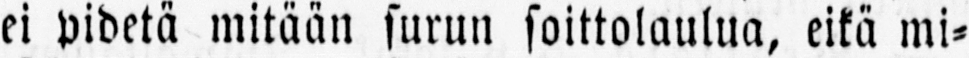ei pidetä mitään surun soittolaulua, eikä mi-
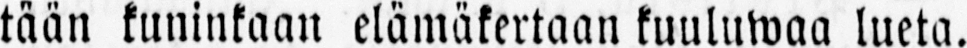tään kuninkaan elämäkertaan kuuluwaa lueta.
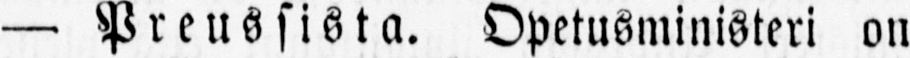— Preussista. Opetusministeri on
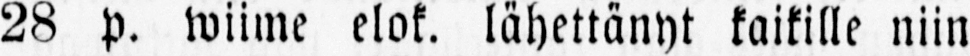28 p. wiime elok. lähettänyt kaikille niin
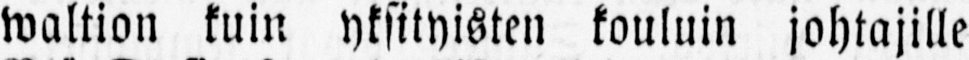waltion kuin yksityisten kouluin johtajille
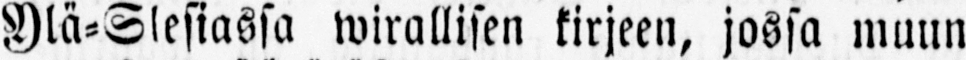Ylä-Slesiassa wirallisen kirjeen, jossa muun
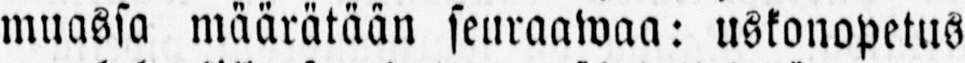muassa määrätään seuraawaa: uskonopetus
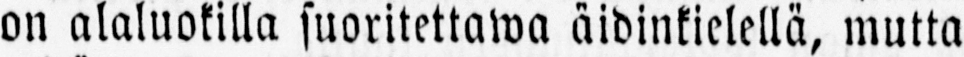on alaluokilla suoritettawa äidinkielellä, mutta
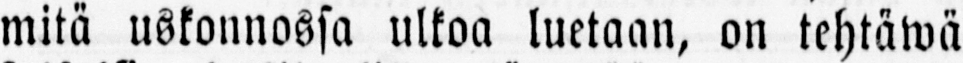mitä uskonnossa ulkoa luetaan, on tehtäwä
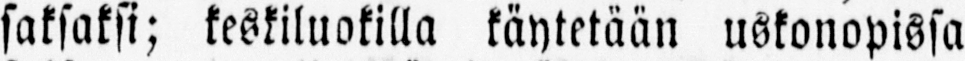saksaksi; keskiluokilla käytetään uskonopissa
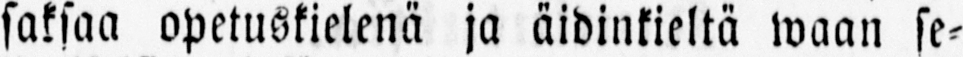saksaa opetuskielenä ja äidinkieltä waan se-
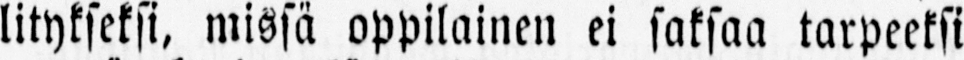litykseksi, missä oppilainen ei saksaa tarpeeksi
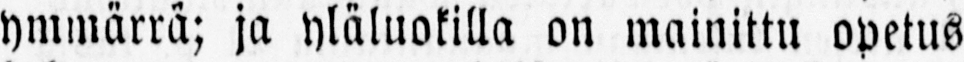ymmärrä; ja yläluokilla on mainittu opetus
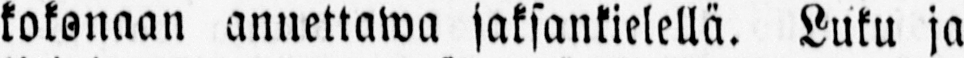kokonaan annettawa saksankielellä. Luku ja
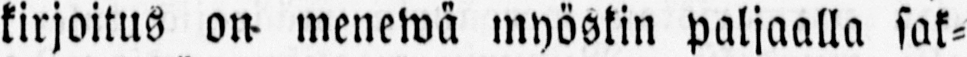kirjoitus on menewä myöskin paljaalla sak-
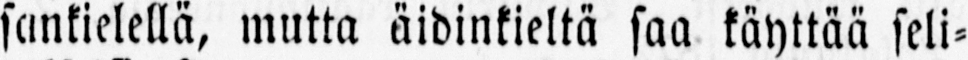sankielellä, mutta äidinkieltä saa käyttää seli-
